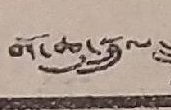བོད་ཆུ་སྦྲུལ་ཟླ་
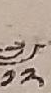༡༢
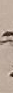ཚེས་
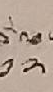༡༢
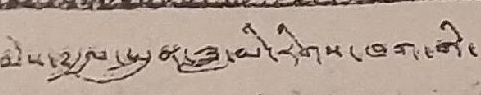མེས་༸རྒྱལ་སྤུན་ཟླ་མི་རིགས་ཁག་གི་
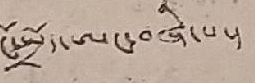ངོ་སྤྲོད་ཨང་བཞི་པ།
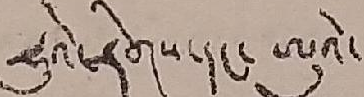ཧུའེ་རིགས་དང་ ཨུའེ་
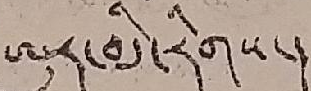ཨུར་མི་རིགས་།
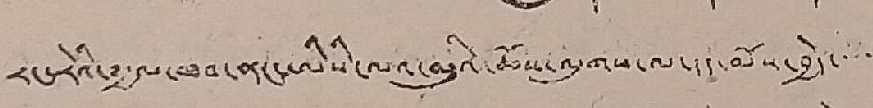རང་རེའི་༸རྒྱལ་ཁབ་ནང་ཨིསི་ལའ་མུའི་ཆོས་ལུགས་ལ་དད་མོས་བྱེད་་་་་
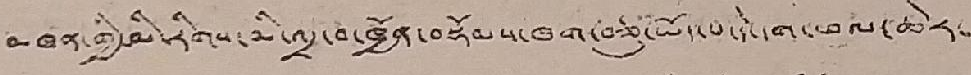མཁན་གྱི་མི་རིགས་མི་འདྲ་བ་ཁྱོན་བསྡོམས་ཁག་བཅུ་ཡོད་པ་དེ་དག་ཕལ་ཆེར་
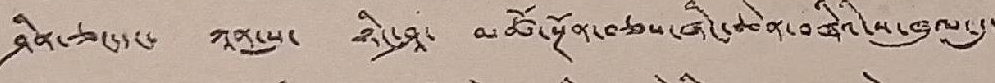ཤིན་ཅང་དང་ ཀཱན་སུ་ ཉིང་ཤཱ་ མཚོ་སྔོན་བཅས་ཞིང་ཆེན་བཞིའི་ས་ཁུལ་དུ་
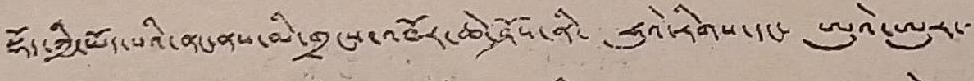སྡོད་ཀྱི་ཡོད་པའི་ནང་ནས་མི་གྲངས་འཁོར་ཆེ་ཤོས་ནི་ ཧུའེ་རིགས་དང་ ཨུའེ་ཨུར་་
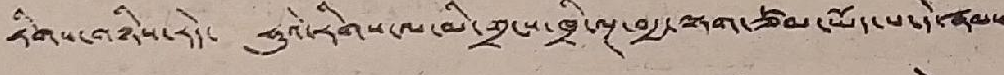རིགས་གཉིས་རེད་ ཧུའེརིགས་ལ་མི་གྲངས་ཁྲི་ལྔ་བརྒྱ་ལྷག་ཙམ་ཡོད་པ་དེ་རྣམས་
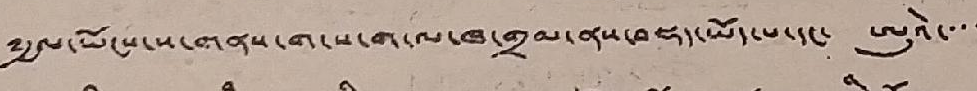༸རྒྱལ་ཡོངས་ས་གནས་ག་ས་ག་ལ་ཁ་གྲལ་ནས་བསྡད་ཡོད་པ་དང་ ཨུའེ་་་་
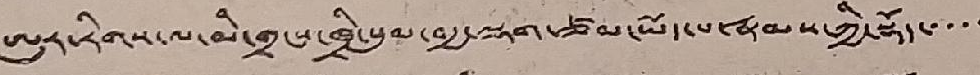ཨུར་རིགས་ལ་མི་གྲངས་ཁྲི་སུམ་བརྒྱ་ལྷག་ཙམ་ཡོད་པ་རྣམས་ཀྱི་སྡོད་་་་་
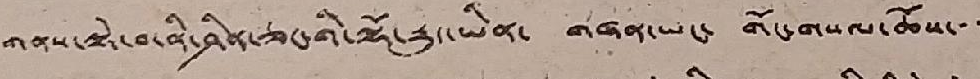གནས་ལྟེ་བ་ནི་ཤིན་ཅང་གི་ལྷོ་རྒྱུད་ཡིན་ གཞན་ཡང་ གོང་གསལ་ཆོས་་་
